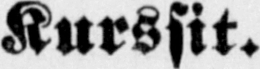Kurssit.
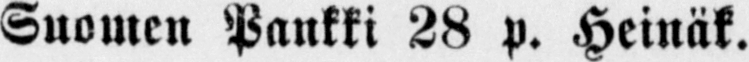Suomen Pankki 28 p. Heinäk.
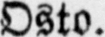Osto.
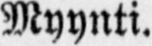Myynti.
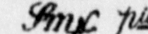Imp piä
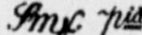Imp piä
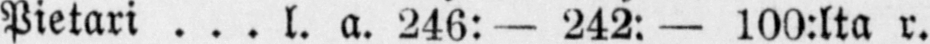Pietari l. a. 246: - 242: — 100:lta r.
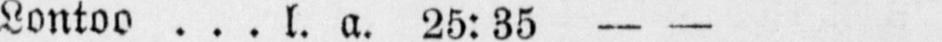Lontoo l. a. 25:35 — —
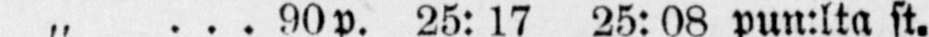„ 90p. 25: 17 25:08 pun:lta st.
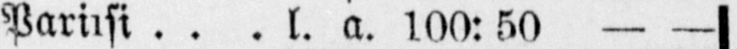Parilsi l. a. 100: 50 — —
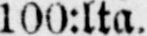100:lta,
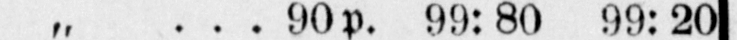„ 90p. 99: 80 99: 20
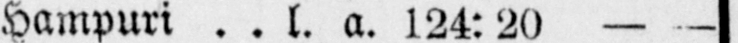Hampuri l. a. 124: 20 — —
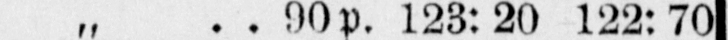„ 90p. 123:20 122:70
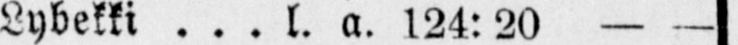Lybekki l. a. 124:20 — —
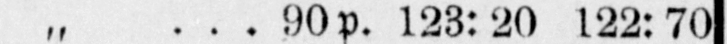„ 90p. 123:20 l22:70
